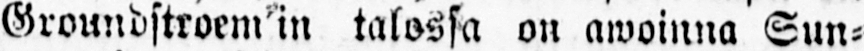Groundstroem'in talossa on awoinna Sun-
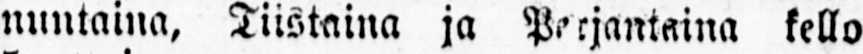nuntaina, Tiistaina ja Perjantaina kello
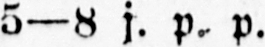5—8 j. p. p.
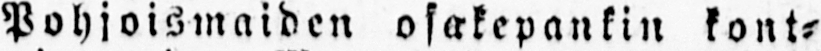Pohjoismaiden osakepankin kont-
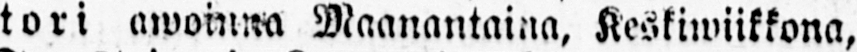tori awoinna Maanantaina, Keskiiviikkona,
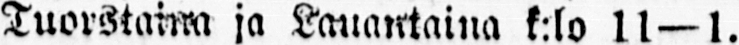Tuorstaina ja Lauantaina k:lo 11—1.
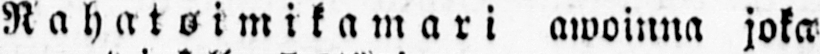Rahatoimikamari awoinna joka
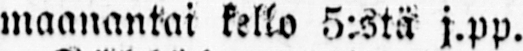maanantai kello 5:stä j.pp.
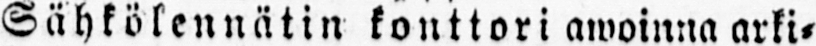Sähkölennätin konttori awoinna arki-
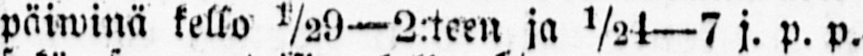päiwinä kello ½9 — 2:tern ja ½ 4—7 j. p. p.
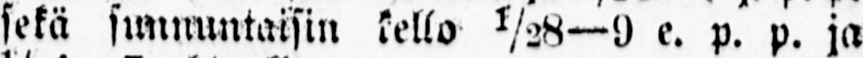sekä sunnuntaisin kello ½8—9 e. p. p. ja
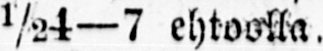½ 4— 7 ehtoolla.
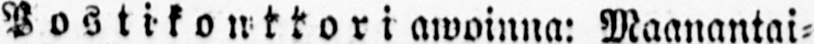Postikonttori awoinna: Maanantai-
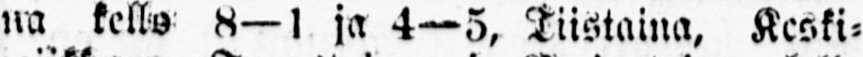na, kello 8—1 ja 4—5, Tiistaina, Keski-
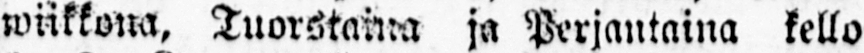wiikkona, Tuorstaina ja Perjantaina kello
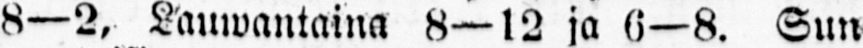8—2, Lauwantaina 8—12 ja 6—8. Sun
